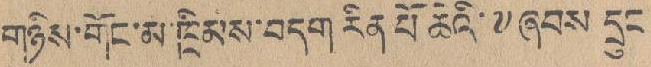གཉིས་གོང་མ་ཁྲིམས་བདག་རིན་པོ ཆེའི་༸ཞབས དྲུང
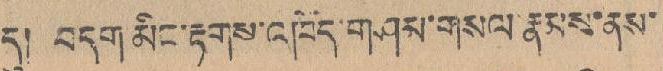དུ། བདག མིང་རྟགས་འཁོད་གཤམ་གསལ་རྣམས་ནས་
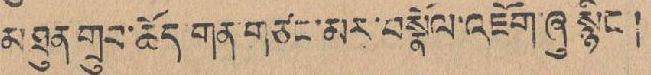མཐུན་གྲུབ་ཆོད གན་གཙང་མར་བསྣོལ་འཇོག་ཞུ་སྙིང །
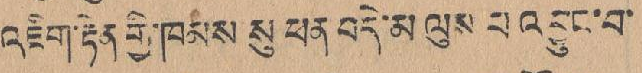འཇིག་རྟེན་གྱི་ཁམས་ སུ ཕན བདེ་མ་ལུས་པ་འ བྱུང་བ་
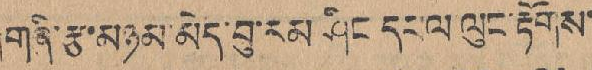གཞི་རྩ་མཉམ་མེད་བུ་རམ་ཤིང དཔ ལ ལུང་རྟོགས་
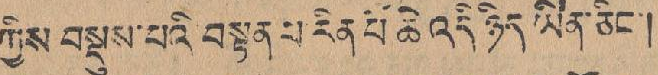ཀྱིས བསྡུས་པའི་བསྟན པ་རིན པོ་ཆེ་འདི་ཉིད ཡིན་ཅིང་།
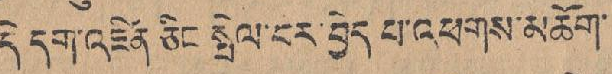དེ་དག་འཛིན ཅིང སྤེལ་བར་བྱེད་པ་འཕགས་མཆོག་
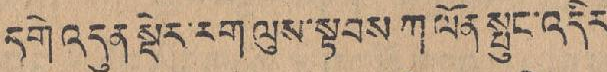དགེ་འདུན སྡེར་རག་ལུས་སྟབས་ཀ ལོན་སྤུང་འདིར་
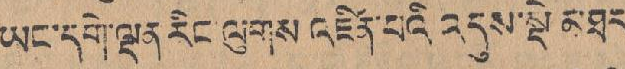ཡང་དགེ་ལྡན་རིང་ལུགས འཛིན་པའི འདུས་སྡེ མཐར་
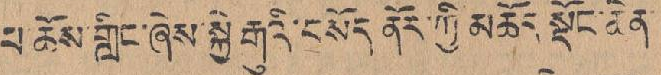པ ཆོས་གླིང་ཞེས་སྐྱེ རྒུའི་བསོད ནོར་ཀྱི་མཆོད་སྡོང་ཆེན་
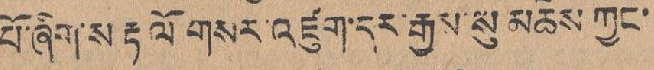པོ་ཞིག་ས་རྟ ལོ གསར་འཛུག་དར་རྒྱས་སུ་མཆེས་ཀྱང་
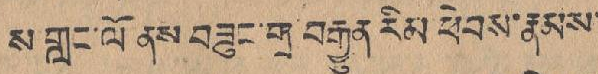ས་གླང་ལོ ནས བཟུང་གྲ་བརྒྱུན་རིམ་ཕེབས་རྣམས་
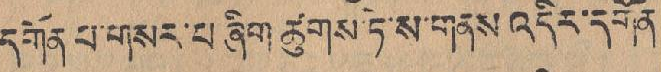དགོན་པ་གསར་པ་ཞིག ཚུགས་ཏེ་ས་གནས་འདིར་དགོན
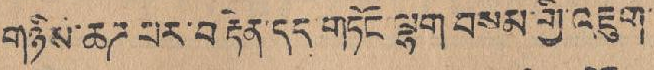གཉིས་ཆཊ་པར་བརྟེན་དད གཏོང་ལྷག་བསམ་གྱི་འཇུག་
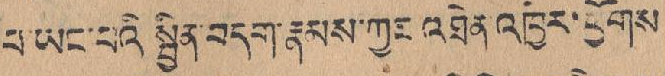པ་ཡང་པའི སྦྱིན་བདག་རྣམས་ཀྱང་འཐེན འཁྱེར་ཕྱོགས
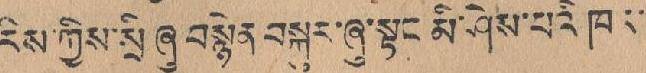རིས་ཀྱིས་སྲི ཞུ བསྙེན་བསྐུར་ཞུ་སྟང མི་ཤེས་པའི་ཁར་
